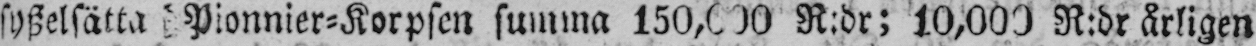syszelsätta Pionnier-Korpsen summa 150,000 R:dr; 10,000 R:dr årligen
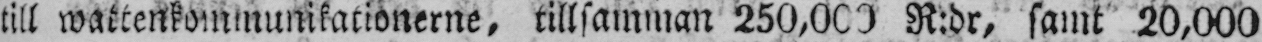till wattenkommunikationerne, tillsamman 250,000 R:dr, samt 20,000
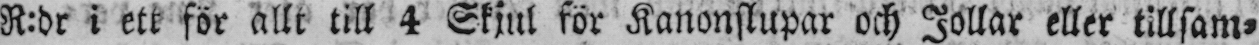R:dr i ett för allt till 4 Skjul för Kanonslupar och Jollar eller tillsam-
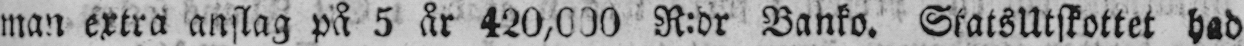man extra anslag på 5 år 420,000 R:dr Banko. StatsUtskottet bad
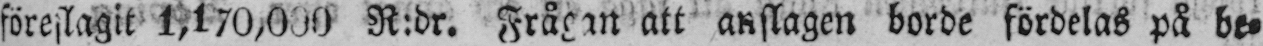föreslagit l,l70,000 R:dr. Frågan att anslagen borde fördelas på be-
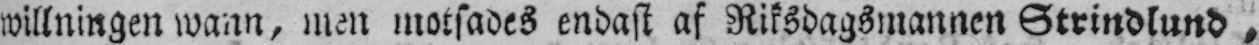willningen wann, men motsades endast af Riksdagsmannen Strindlund ,
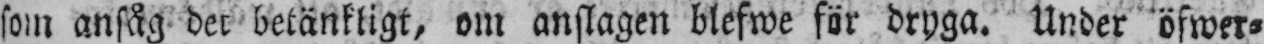som ansåg det betänkligt, om anslagen blefwe för dryga. Under öfwer-
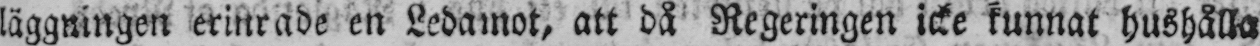läggningen erinrade en Ledamot, att då Regeringen icke kunnat hushålla
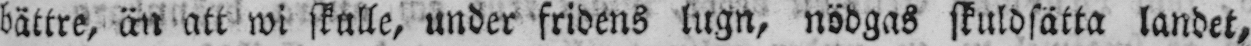bättre, än att wi skulle, under fridens lugn, nödgas skuldsätta landet,
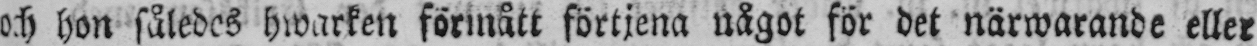och hon således hwarken förmått förtjena något för det närwarande eller
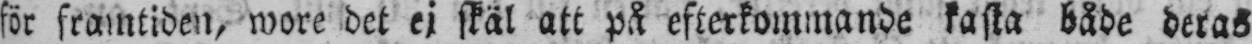för framtiden, wore det ej skäl att på efterkommande kasta både deras
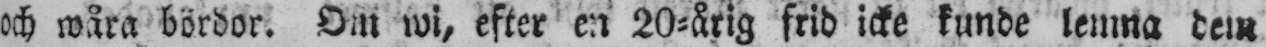och wåra bördor. Om wi, efter en 20-årig frid icke kunde lemna dem
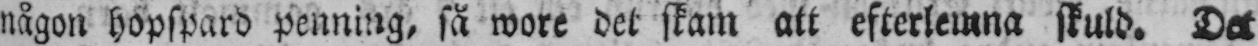någon hopspard penning, så wore det skam att efterlemna skuld. Det
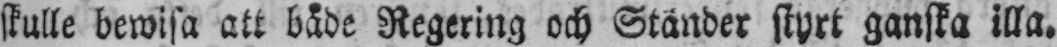skulle bewisa att både Regering och Ständer styrt ganska illa.
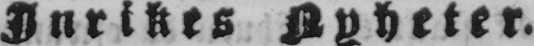Inrikes Nyheter.
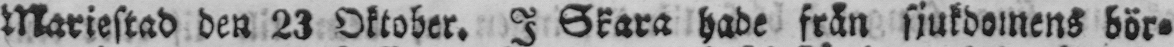Mariestad den 23 Oktober. I Skara hade från sjukdomens bör-
